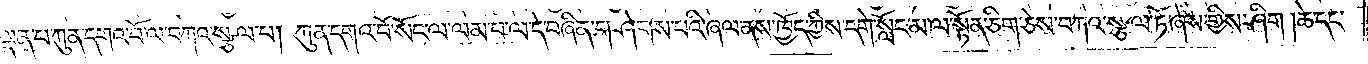ལྡན་པ་ཀུན་དགའ་བོ་ལ་བཀའ་སྩལ་པ། ཀུན་དགའ་བོ་སོང་ལ་ལམ་པ་ལ་དེ་བཞིན་གཤེགས་པའི་ཞལ་ནས་ཁྱོད་ཀྱིས་དགེ་སློང་མ་ལ་སྟོན་ཅིག་ཅེས་བཀའ་སྩལ་ཏོ་ཞེས་གྱིས་ཤིག །ཚེ་དང་
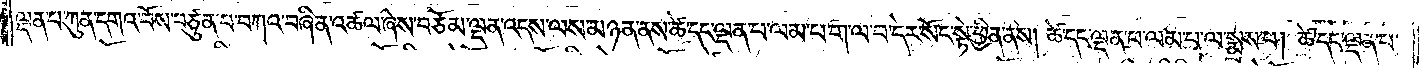ལྡན་པ་ཀུན་དགའ་བོས་བཙུན་པ་བཀའ་བཞིན་འཚལ་ཞེས་བཅོམ་ལྡན་འདས་ལས་མཉན་ནས་ཚེ་དང་ལྡན་པ་ལམ་པ་ག་ལ་བ་དེར་སོང་སྟེ་ཕྱིན་ནས། ཚེ་དང་ལྡན་པ་ལམ་པ་ལ་སྨྲས་པ། ཚེ་དང་ལྡན་པ་
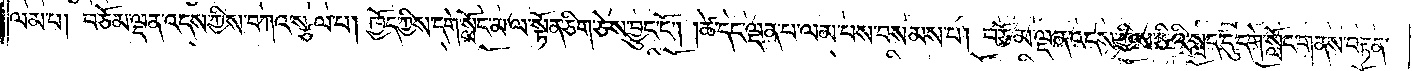ལམ་པ། བཅོམ་ལྡན་འདས་ཀྱིས་བཀའ་སྩལ་པ། ཁྱོད་ཀྱིས་དགེ་སློང་མ་ལ་སྟོན་ཅིག་ཅེས་བྱུང་ངོ༌། །ཚེ་དང་ལྡན་པ་ལམ་པས་བསམས་པ། བཅོམ་ལྡན་འདས་ཀྱིས་ཅིའི་སླད་དུ་དགེ་སློང་གནས་བརྟན་
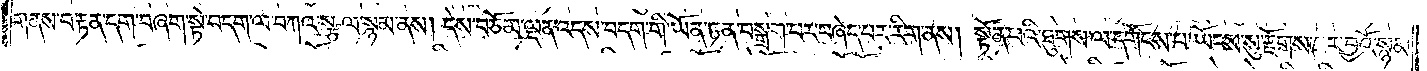གནས་བརྟན་དག་བཞག་སྟེ་བདག་ལ་བཀའ་སྩལ་སྙམ་ནས། དེས་བཅོམ་ལྡན་འདས་བདག་གི་ཡོན་ཏན་བསྒྲག་པར་བཞེད་པར་རིག་ནས། སྟོན་པའི་ཐུགས་ལ་དགོངས་པ་ཡོངས་སུ་རྫོགས་པར་བྱའོ་སྙམ་
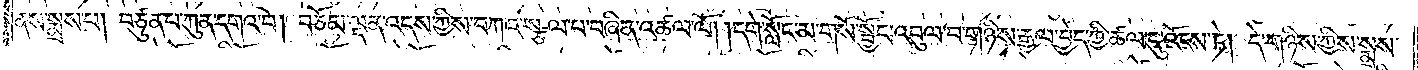ནས་སྨྲས་པ། བཙུན་པ་ཀུན་དགའ་བོ། བཅོམ་ལྡན་འདས་ཀྱིས་བཀའ་སྩལ་པ་བཞིན་འཚལ་ལོ། །དགེ་སློང་མ་གསོ་སྦྱོང་འབུལ་བ་གཉིས་རྒྱལ་བྱེད་ཀྱི་ཚལ་དུ་འོངས་ཏེ། དེ་གཉིས་ཀྱིས་སྨྲས་
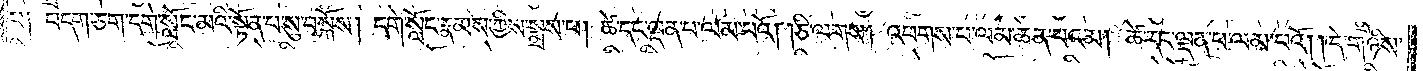པ༑ བདག་ཅག་དགེ་སློང་མའི་སྟོན་པ་སུ་བསྐོས། དགེ་སློང་རྣམས་ཀྱིས་སྨྲས་པ། ཚེ་དང་ལྡན་པ་ལམ་པའོ། །ཅི་ལགས། འཕགས་པ་ལམ་ཆེན་པའམ། ཚེ་དང་ལྡན་པ་ལམ་པའོ། །དེ་གཉིས་
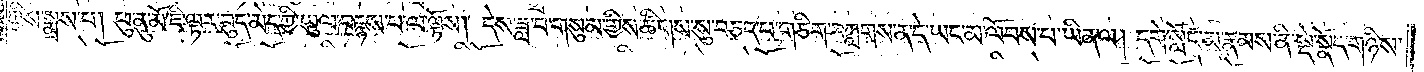ཀྱིས་སྨྲས་པ། ཕུ་ནུ་མོ་ཇི་ལྟར་བུད་མེད་ཀྱི་ཡུལ་བརྙས་པ་ལ་ལྟོས། དེས་ཟླ་བ་གསུམ་གྱིས་ཚིགས་སུ་བཅད་པ་གཅིག་བཀླགས་ན་དེ་ཡང་མ་ལོབས་པ་ཡིན་ལ། དགེ་སློང་མ་རྣམས་ནི་སྡེ་སྣོད་གཉིས་
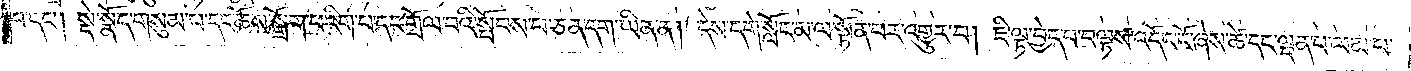པ་དང༌། སྡེ་སྣོད་གསུམ་པ་དང་ཆོས་སྒྲོག་པ་རིག་པ་དང་གྲོལ་བའི་སྤོབས་པ་ཅན་དག་ཡིན་ན། དེས་དགེ་སློང་མ་ལ་སྟོན་པར་འགྱུར་བ། ཇི་ལྟ་བྱེད་པ་བལྟས་འདོང་ངོ་ཞེས་ཚེ་དང་ལྡན་པ་ལམ་པ་
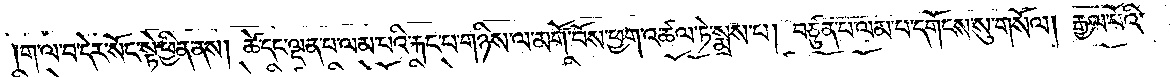ག་ལ་བ་དེར་སོང་སྟེ་ཕྱིན་ནས། ཚེ་དང་ལྡན་པ་ལམ་པའི་རྐང་པ་གཉིས་ལ་མགོ་བོས་ཕྱག་འཚལ་ཏེ་སྨྲས་པ། བཙུན་པ་ལམ་པ་དགོངས་སུ་གསོལ། རྒྱལ་པོའི་
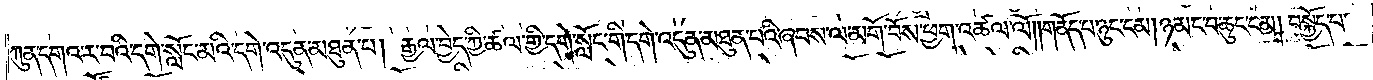ཀུན་དགའ་ར་བའི་དགེ་སློང་མའི་དགེ་འདུན་མཐུན་པ། རྒྱལ་བྱེད་ཀྱི་ཚལ་གྱི་དགེ་སློང་གི་དགེ་འདུན་མཐུན་པའི་ཞབས་ལ་མགོ་བོས་ཕྱག་འཚལ་ལོ། །གནོད་པ་ཉུང་ངམ། ཉམ་ང་བ་ཆུང་ངམ། བསྐྱོད་པ་
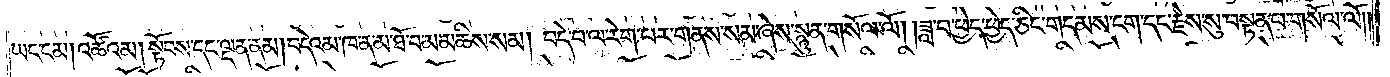ཡང་ངམ། འཚོའམ། སྟོབས་དང་ལྡན་ནམ། བདེའམ་ཁ་ན་མ་ཐོ་བ་མ་མཆིས་སམ། བདེ་བ་ལ་རེག་པར་གནས་སམ་ཞེས་སྙུན་གསོལ་ལོ། །ཟླ་བ་ཕྱེད་ཕྱེད་ཅིང་གདམས་ངག་དང་རྗེས་སུ་བསྟན་པ་གསོལ་ལོ། །
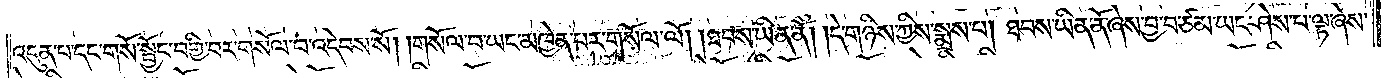འདུན་པ་དང་གསོ་སྦྱོང་བགྱི་བར་གསོལ་བ་འདེབས་སོ། །གསོལ་པ་ཡང་མཁྱེན་པར་གསོལ་ལོ། །ཐབས་ཡིན་ནོ། །དེ་གཉིས་ཀྱིས་སྨྲས་པ། ཐབས་ཡིན་ནོ་ཞེས་བྱ་བ་ཙམ་ཡང་ཤེས་པ་ལྟ་ཞེས་
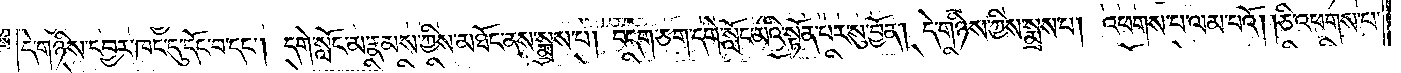དེ་གཉིས་དབྱར་ཁང་དུ་དོང་བ་དང༌། དགེ་སློང་མ་རྣམས་ཀྱིས་མཐོང་ནས་སྨྲས་པ། བདག་ཅག་དགེ་སློང་མའི་སྟོན་པར་སུ་བྱོན། དེ་གཉིས་ཀྱིས་སྨྲས་པ། འཕགས་པ་ལམ་པའོ། །ཅི་འཕགས་པ་
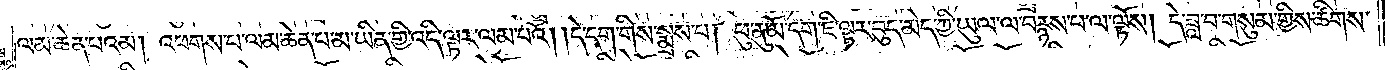ལམ་ཆེན་པའམ། འཕགས་པ་ལམ་ཆེན་པ་མ་ཡིན་གྱི་འདི་ལྟར་ལམ་པའོ། །དེ་དག་གིས་སྨྲས་པ། ཕུ་ནུ་མོ་དག་ཇི་ལྟར་བུད་མེད་ཀྱི་ཡུལ་ལ་བརྙས་པ་ལ་ལྟོས། དེ་ཟླ་བ་གསུམ་གྱིས་ཚིགས་
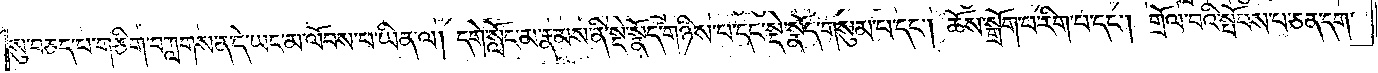སུ་བཅད་པ་གཅིག་བཀླགས་ན་དེ་ཡང་མ་ལོབས་པ་ཡིན་ལ། དགེ་སློང་མ་རྣམས་ནི་སྡེ་སྣོད་གཉིས་པ་དང་སྡེ་སྣོད་གསུམ་པ་དང༌། ཆོས་སྒྲོག་པ་རིག་པ་དང༌། གྲོལ་བའི་སྤོབས་པ་ཅན་དག་
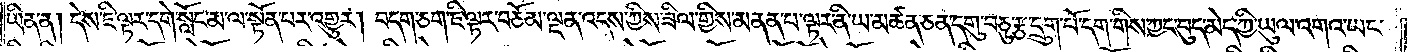ཡིན་ན། དེས་ཇི་ལྟར་དགེ་སློང་མ་ལ་སྟོན་པར་འགྱུར། བདག་ཅག་ཇི་ལྟར་བཅོམ་ལྡན་འདས་ཀྱིས་ཟིལ་གྱིས་མནན་པ་ལྟར་ནི་ཡ་མཚན་ཅན་དགུ་བཅུ་རྩ་དྲུག་པོ་དག་གིས་ཀྱང་བུད་མེད་ཀྱི་ཡུལ་འགའ་ཡང་
